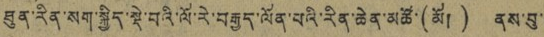ཐུན་རིན་སག་སྐྱིད་སྡེ་བའི་ལོ་རེ་བརྒྱད་ལོན་པའི་རིན་ཆེན་མཚོ་(མོ།) ནས་བུ་
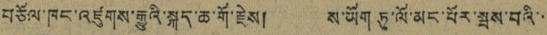བཅོལ་ཁང་འཛུགས་རྒྱུའི་སྐད་ཆ་གོ་རྗེས། ས་ཡོག ཏུ་ལོ་མང་པོར་སྦས་བའི་་
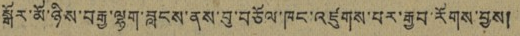སྒོར་མོ་ཉིས་བརྒྱ་ལྷག་བླངས་ནས་བུ་བཅོལ་ཁང་འཛུགས་པར་རྒྱབ་རོགས་བྱས།
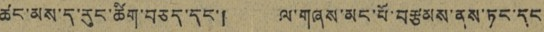ཚང་མས་ད་རུང་ཚིག་བཅད་དང་། ལ་གཞས་མང་པོ་བརྩམས་ནས་ཏང་དང
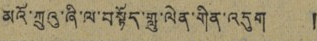མའོ་ཀྲུའུ་ཞི་ལ་བསྟོད་གླུ་ལེན་གིན་འདུག །
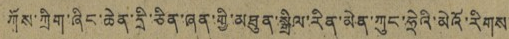ཀོས་ཀྲིག་ཞིང་ཆེན་དྲི་ཅིན་ཞན་གྱི་མཐུན་སྒྲིལ་རིན་མེན་ཀུང་ཧྲེའི་མེའོ་རིགས་
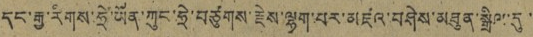དང་རྒྱ་རིགས་ཧྲེ་ཡོན་ཀུང་ཧྲེ་བཙུགས་རྗེས་ལྷག་པར་མཛའ་བཤེས་མཐུན་སྒྲིལ་དུ་་
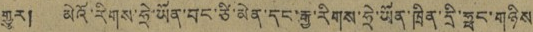གྱུར། མེའོ་རིགས་ཧྲེ་ཡོན་བང་ཙི་མེན་དང་རྒྱ་རིགས་ཧྲེ་ཡོན་ཁྲིན་དྲི་ཧྥང་གཉིས་
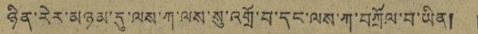ཉིན་རེར་མཉམ་དུ་ལས་ཀ་ལས་སུ་འགྲོ་བ་དང་ལས་ཀ་བཀྲོལ་བ་ཡིན། །
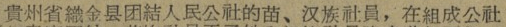貴州省織金县团結人民公社的苗、汉族社員，在組成公社
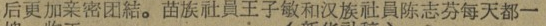后更加亲密团結。苗族社員王子敏和汉族社員陈志芬每天都一
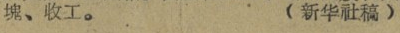塊、收工。 （新华社稿）
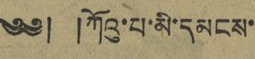༄༅། །ཀོའུ་པ་མི་དམངས་
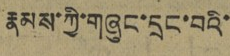རྣམས་ཀྱི་གཞུང་དྲང་བའི་
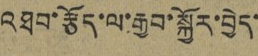འཐབ་རྩོད་ལ་རྒྱབ་སྐྱོར་བྱེད་
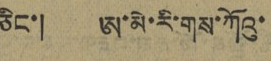ཅིང་། ཨ་མེ་རི་གས་ཀོའུ་
